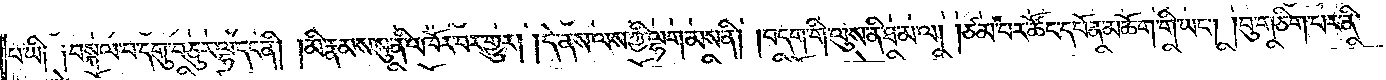པ་ཡི༑ ༑བསྐལ་པ་དགུ་བཅུར་ལྷ་དང་ནི། །མི་རྣམས་སུ་ནི་འཁོར་བར་གྱུར། །དེ་ནས་ལས་ཀྱི་ལྷག་མས་ནི། །བདག་གི་ལུས་ནི་ཐ་མ་ལ། །ཙམ་པར་ཚོང་དཔོན་མཆོག་གི་ཡང༌། །བུ་གཅིག་པར་ནི་
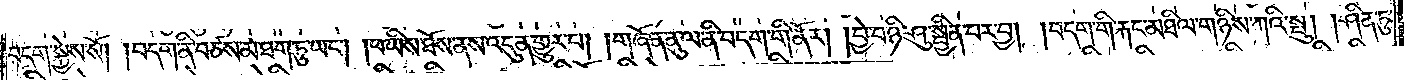བདག་སྐྱེས་སོ། །བདག་ནི་བཙས་མ་ཐག་ཏུ་ཡང༌། །ཕ་ཡིས་ཐོས་ནས་འདུན་གྱུར་པ། །གཞོན་ནུ་ལ་ནི་བདག་གི་ནོར། །བྱེ་བ་ཉི་ཤུ་སྦྱིན་པར་བྱ། །བདག་གི་རྐང་མཐིལ་གཉིས་ཀའི་སྤུ། །ཤིན་ཏུ་
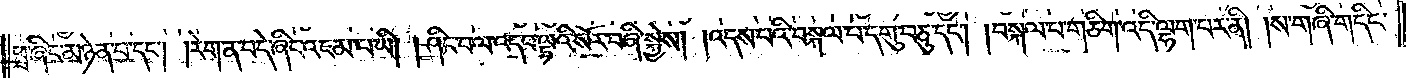ཕྲ་ཞིང་མཉེན་པ་དང༌། །རེག་ན་བདེ་ཞིང་འཇམ་པ་ཡི། །ཤིང་བལ་འདབ་ལྟའི་སོར་བཞི་སྐྱེས། །འདས་པའི་བསྐལ་བ་དགུ་བཅུ་དང༌། །བསྐལ་པ་གཅིག་འདི་ལྷག་པར་ནི། །ས་གཞི་གདིང་
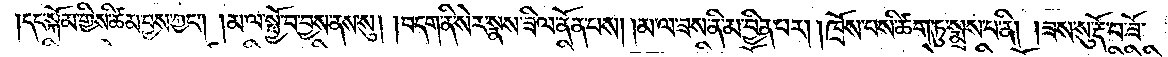།དང་སྐོམ་གྱིས་ཚིམ་བྱས་ཀྱང༌། །མ་ལ་སྤྱོ་བ་བྱས་ནས་སུ། །བདག་ནི་སེར་སྣས་ཟིལ་ནོན་པས། །མ་ལ་ཟས་ནི་མ་བྱིན་པར། །ཁྲོས་པས་ཚིག་ཏུ་སྨྲས་པ་ནི། །ཟས་སུ་རྡོ་བ་ཟོ་
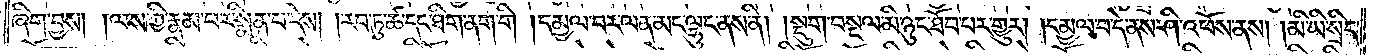ཞིག་བྱས། །ལས་ཀྱི་རྣམ་པར་སྨིན་པ་དེས། །རབ་ཏུ་ཚ་དང་ཐིག་ནག་གི །དམྱལ་བར་ལན་མང་ལྷུང་ནས་ནི། །སྡུག་བསྔལ་མི་ཉུང་ཐོབ་པར་གྱུར། །དམྱལ་བ་དེ་ནས་ཤི་འཕོས་ནས། །མི་ཡི་སྲིད་
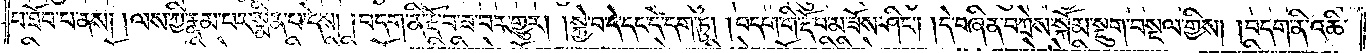པ་ཐོབ་པ་ནས། །ལས་ཀྱི་རྣམ་པར་སྨིན་པ་དེས། །བདག་ནི་རྡོ་བ་ཟ་བར་གྱུར། །སྐྱེ་བ་དེ་དང་དེ་དག་ཏུ། །བདག་གི་རྡོ་བ་མ་ཟོས་ཤིང༌། །དེ་བཞིན་བཀྲེས་སྐོམ་སྡུག་བསྔལ་གྱིས། །བདག་ནི་འཆི་
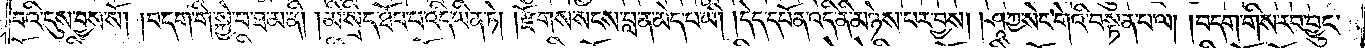བའི་དུས་བྱས་སོ། །བདག་གི་སྐྱེ་བ་ཐ་མ་ནི། །མི་སྲིད་ཐོབ་པ་འདི་ཡིན་ཏེ། །རྫོགས་སངས་བླ་ན་མེད་པ་ཡི། །དེད་དཔོན་འདི་ནི་མཉེས་པར་བྱས། །ཤཱཀྱ་སེང་གེའི་བསྟན་པ་ལ། །བདག་གིས་རབ་བྱུང་
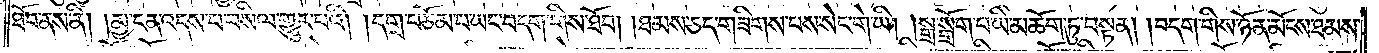ཐོབ་ནས་ནི། །མྱ་ངན་འདས་པ་བསིལ་གྱུར་པའི། །དགྲ་བཅོམ་པ་ཡང་བདག་གིས་ཐོབ། །ཐམས་ཅད་གཟིགས་པས་སེང་གེ་ཡི། །སྒྲ་སྒྲོག་པ་ཡི་མཆོག་ཏུ་བསྟན། །བདག་གིས་ཉོན་མོངས་ཐམས་
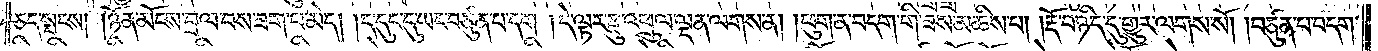ཅད་སྤངས། །ཉོན་མོངས་བྲལ་བས་ཟག་པ་མེད། །ད་དུང་དུ་ཡང་བཙུན་པ་དག །དེ་ལྟར་རྫུ་འཕྲུལ་ལྡན་ལགས་ན། །ཕུག་ན་བདག་གི་ཟས་མཆིས་པ། །རྡོ་བ་ཉིད་དུ་གྱུར་ལགས་སོ། །བཙུན་པ་བདག་
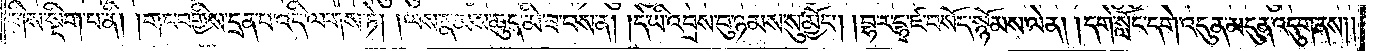གིས་སྡིག་པ་ནི། །གང་བགྱིས་དྲན་པ་འདི་ལགས་ཏེ། །ལས་རྣམས་ཆུད་མི་ཟ་བས་ན། །དེ་ཡི་འབྲས་བུ་ཉམས་སུ་མྱོང༌། །བྷ་ར་དྷཱ་ཛ་བསོད་སྙོམས་ལེན། །དགེ་སློང་དགེ་འདུན་མདུན་འདུག་ནས༎
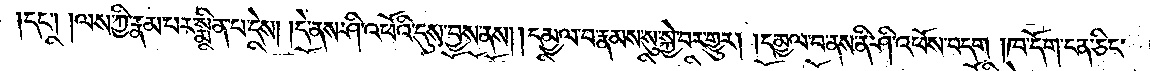དང༌། །ལས་ཀྱི་རྣམ་པར་སྨིན་པ་དེས། །དེ་ནས་ཤི་འཕོའི་དུས་བྱས་ནས། །དམྱལ་བ་རྣམས་སུ་སྐྱེ་བར་གྱུར། །དམྱལ་བ་ནས་ནི་ཤི་འཕོས་བདག །ཁ་དོག་ངན་ཅིང་
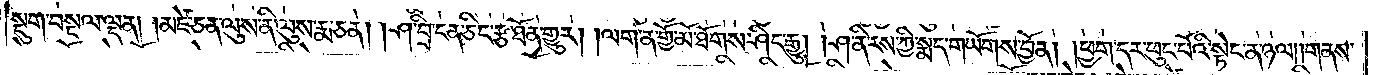སྡུག་བསྔལ་ལྡན། །མཛེ་ཅན་ལུས་ནི་ལུས་རྨ་ཅན། །ཤ་བྲི་ངན་ཅིང་རྩ་ཐོན་གྱུར། །ལག་ན་གྱོ་མོ་ཐོགས་ཤིང་རྒྱུ། །ཤ་ནི་རས་ཀྱི་སྨད་གཡོགས་བྱོན། །ཕྱག་དར་ཕུང་པོའི་སྟེང་ན་ཉལ། །གནས་
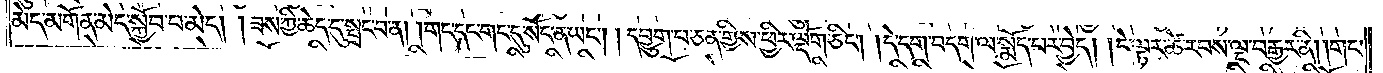མེད་མགོན་མེད་སྐྱོབ་པ་མེད། །ཟས་ཀྱི་ཆེད་དུ་སྤྲང་བ་ན། །གང་དང་གང་དུ་སོང་ན་ཡང༌། །དབྱུག་པ་ཅན་གྱིས་ཕྱིར་ལྡོག་ཅིང༌། །དེ་དག་བདག་ལ་སྨོད་པར་བྱེད། །དེ་ལྟར་ཚེ་རབས་ལྔ་བརྒྱར་ནི། །གང་
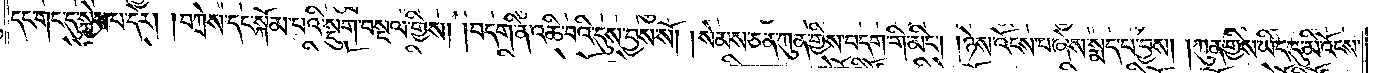དང་གང་དུ་སྐྱེས་པ་དེར། །བཀྲེས་དང་སྐོམ་པའི་སྡུག་བསྔལ་གྱིས། །བདག་ནི་འཆི་བའི་དུས་བྱས་སོ། །སེམས་ཅན་ཀུན་གྱིས་བདག་གི་མིང༌། །ཉེས་འོངས་པ་ཞེས་སྨད་པ་བྱས། །ཀུན་གྱིས་ཡིད་དུ་མི་འོངས་
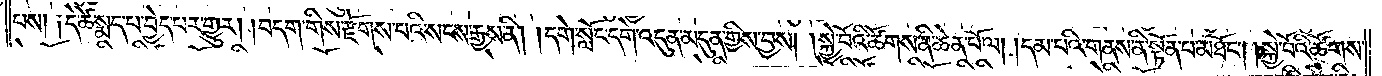པས། །དེ་ཚེ་སྨད་པ་བྱེད་པར་གྱུར། །བདག་གིས་རྫོགས་པའི་སངས་རྒྱས་ནི། །དགེ་སློང་དགེ་འདུན་མདུན་གྱིས་བྱས། །སྐྱེ་བོའི་ཚོགས་ནི་ཆེན་པོ་ལ། །དམ་པའི་གནས་ནི་སྟོན་པ་མཐོང༌། །སྐྱེ་བོའི་ཚོགས་
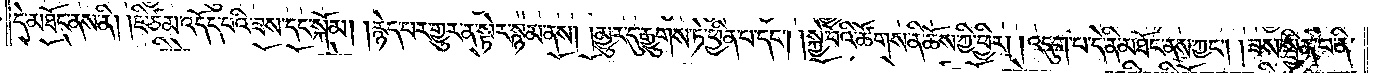དེ་མཐོང་ནས་ནི། །ཇི་ཙམ་འདོད་པའི་ཟས་དང་སྐོམ། །རྙེད་པར་གྱུར་ན་སྟེར་སྙམ་ནས། །མྱུར་དུ་རྒྱུགས་ཏེ་ཕྱིན་པ་དང༌། །སྐྱེ་བོའི་ཚོགས་ནི་ཆོས་ཀྱི་ཕྱིར། །འདུག་པ་དེ་ནི་མཐོང་ནས་ཀྱང༌། །ཟས་སྦྱིན་པ་ནི་
